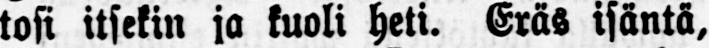tosi itsekin ja kuoli heti. Eräs isäntä,
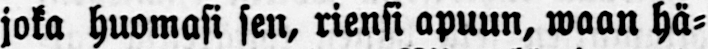joka huomasi sen, riensi apuun, waan hä-
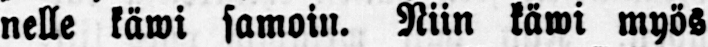nelle käwi samoin. Niin käwi myös
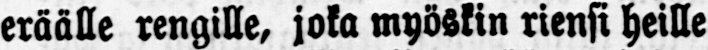eräälle rengille, joka myöskin riensi heille
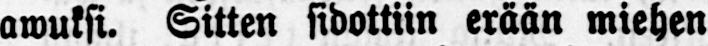awuksi. Sitten sidottiin erään miehen
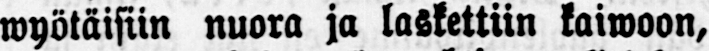wyötäisiin nuora ja laskettiin kaiwoon,
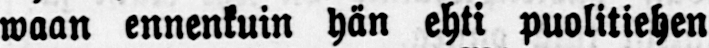waan ennenkuin hän ehti puolitiehen
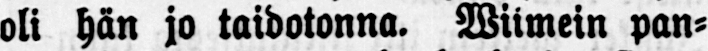oli hän jo taidotonna. Wiimein pan-
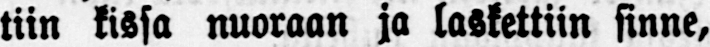tiin kissa nuoraan ja laskettiin sinne,
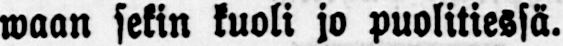waan sekin kuoli jo puolitiessä.
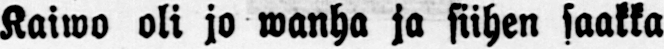Kaiwo oli jo wanha ja siihen saakka
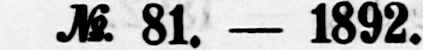No. 81. — 1892.
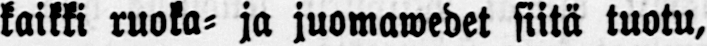kaikki ruoka- ja juomawedet siitä tuotu,
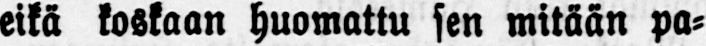eikä koskaan huomattu sen mitään pa-
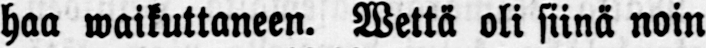haa waikuttaneen. Wettä oli siinä noin
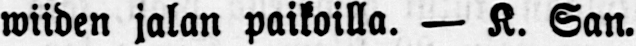wiiden jalan paikoilla. — K. San.
